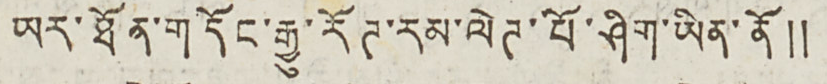ཡར་ཐོན་གདོང་རྒྱུ་རོཊ་རམ་ལེཊ་པོ་ཤིག་ཡིན་ནོ༎
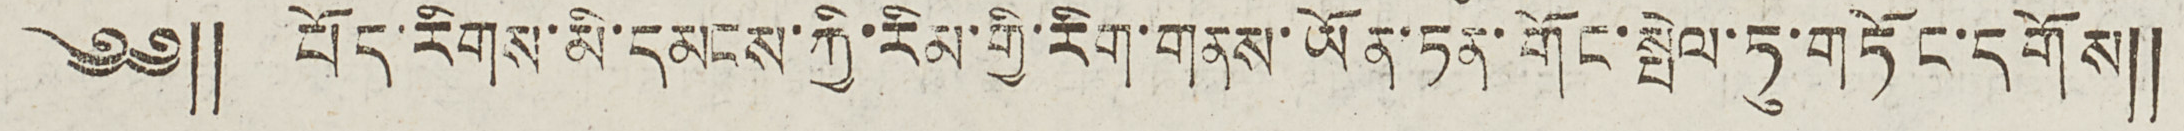༄༅༎ པོད་རིགས་མི་དམངས་ཀྱི་རིམ་གྱི་རིག་གནས་ཡོན་ཏན་གོང་སྤེལ་ཏུ་གཏོང་དགོས༎
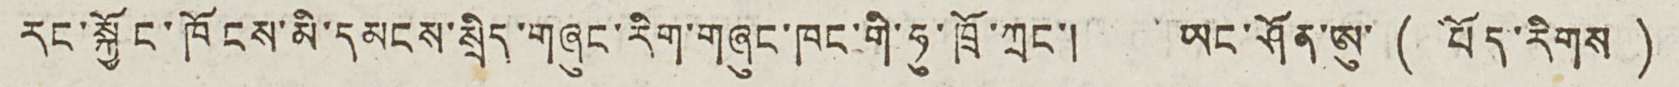རང་སྐྱོང་ཁོངས་མི་དམངས་སྲིད་གཞུང་རིག་གཞུང་ཁང་གི་ཧུ་ཁྲོ་ཀྲང་། ཡང་ཤོན་ཨུ་ ( བོད་རིགས )
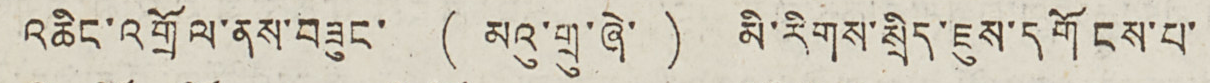འཆིང་འགྲོལ་ནས་བཟུང་ ( མའུ་གྲུ་ཞེ་ ) མི་རིགས་སྲིད་ཇུས་དགོངས་པ་
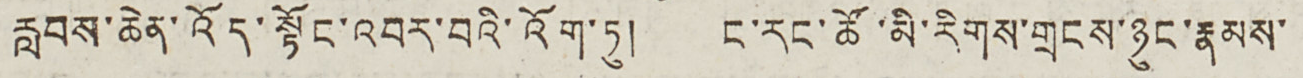རླབས་ཆེན་འོད་སྟོང་འབར་བའི་འོག་ཏུ། ང་རང་ཚོ་མི་རིགས་གྲངས་ཉུང་རྣམས་
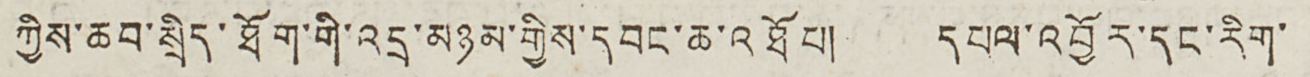ཀྱིས་ཆབ་སྲིད་ཐོག་གི་འདྲ་མཉམ་གྱིས་དབང་ཆ་འཐོཔ། དཔལ་འབྱོར་དང་རིག་
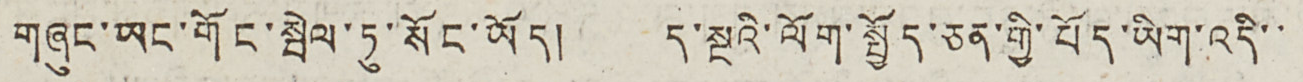གཞུང་ཡང་གོང་སྤེལ་ཏུ་སོང་ཡོད། ད་སྔའི་ལོག་སྤྱོད་ཅན་གྱི་པོད་ཡིག་འདི་་
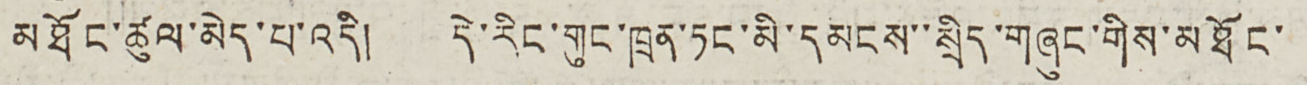མཐོང་ཚུལ་མེད་པ་འདི། དེ་རིང་གུང་ཁྲན་ཏང་མི་དམངས་་སྲིད་གཞུང་གིས་མཐོང་
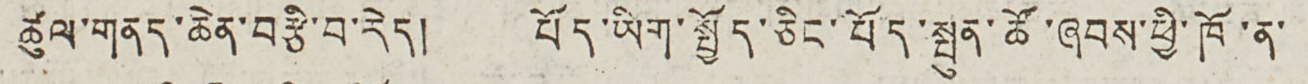ཚུལ་གནད་ཆེན་བརྩི་བ་རེད། པོད་ཡིག་སྤྱོད་ཅིང་བོད་སྤུན་ཚོ་ཞབས་ཕྱི་ཁོ་ན་
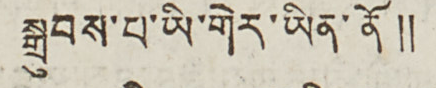སྒྲུབས་པ་ཡི་གེར་ཡིན་ནོ༎
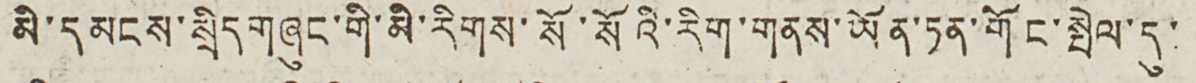མི་དམངས་སྲིད གཞུང་གི་མི་རིགས་སོ་སོའི་རིག་གནས་ཡོན་ཏན་གོང་སྤེལ་དུ་
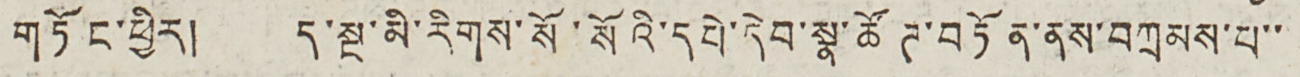གཏོང་ཕྱིར། ད་སྔ་མི་རིགས་སོ་སོའི་དཔེ་དེབ་སྣ་ཚོཊ་བཏོན་ནས་བཀྲམས་པ་་
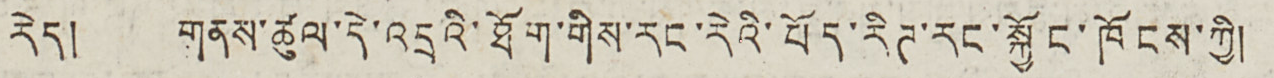རེད། གནས་ཚུལ་དེ་འདྲའི་ཐོག་གིས་རང་རེའི་པོད་རིཊ་རང་སྐྱོང་ཁོངས་ཀྱི།
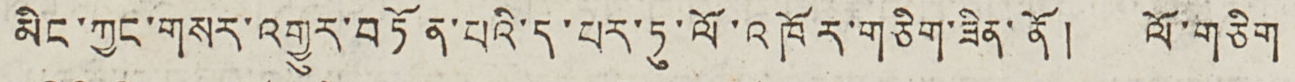མིང་ཀྱང་གསར་འགྱུར་བཏོན་པའི་ད་པར་ཏུ་ལོ་འཁོར་གཅིག་ཟིན་ནོ། ལོ་གཅིག
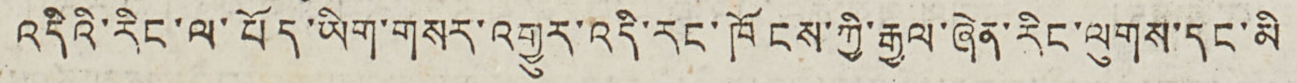འདིའི་རིང་ལ་པོད་ཡིག་གསར་འགྱུར་འདི་རང་ཁོངས་ཀྱི་རྒྱལ་ཞེན་རིང་ལུགས་དང་མི
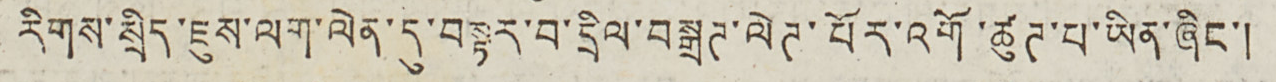རིགས་སྲིད་ཇུས་ལག་ལེན་དུ་བསྟར་བ་དྲིལ་བསྒྲཊ་ལེཊ་པོར་འགོ་ཚུཊ་པ་ཡིན་ཞིང་།
